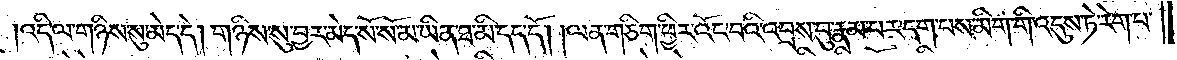འདི་ལ་གཉིས་སུ་མེད་དེ། གཉིས་སུ་བྱར་མེད་སོ་སོ་མ་ཡིན་ཐ་མི་དད་དོ། །ལན་གཅིག་ཕྱིར་འོང་བའི་འབྲས་བུ་རྣམ་པར་དག་པས་མིག་གི་འདུས་ཏེ་རེག་པ་
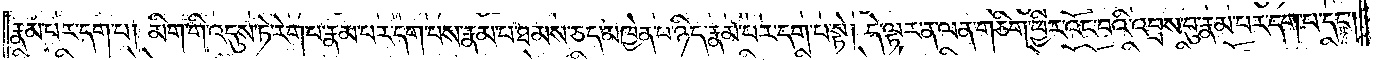རྣམ་པར་དག་པ། མིག་གི་འདུས་ཏེ་རེག་པ་རྣམ་པར་དག་པས་རྣམ་པ་ཐམས་ཅད་མཁྱེན་པ་ཉིད་རྣམ་པར་དག་པ་སྟེ། དེ་ལྟར་ན་ལན་གཅིག་ཕྱིར་འོང་པའི་འབྲས་བུ་རྣམ་པར་དག་པ་དང༌།
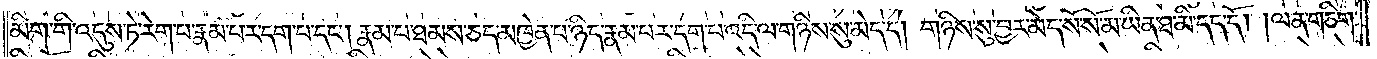མིག་གི་འདུས་ཏེ་རེག་པ་རྣམ་པར་དག་པ་དང༌། རྣམ་པ་ཐམས་ཅད་མཁྱེན་པ་ཉིད་རྣམ་པར་དག་པ་འདི་ལ་གཉིས་སུ་མེད་དེ། གཉིས་སུ་བྱར་མེད་སོ་སོ་མ་ཡིན་ཐ་མི་དད་དོ། །ལན་གཅིག་
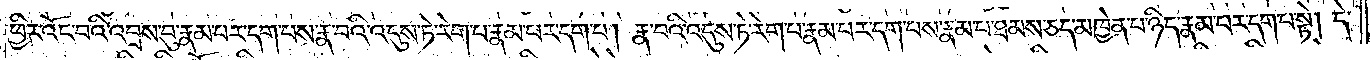ཕྱིར་འོང་བའི་འབྲས་བུ་རྣམ་པར་དག་པས་རྣ་བའི་འདུས་ཏེ་རེག་པ་རྣམ་པར་དག་པ། རྣ་བའི་འདུས་ཏེ་རེག་པ་རྣམ་པར་དག་པས་རྣམ་པ་ཐམས་ཅད་མཁྱེན་པ་ཉིད་རྣམ་པར་དག་པ་སྟེ། དེ་
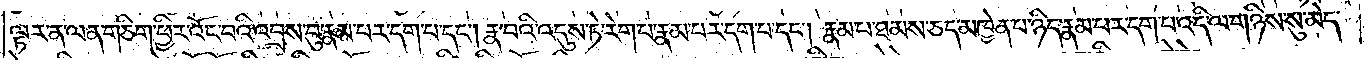ལྟར་ན་ལན་གཅིག་ཕྱིར་འོང་བའི་འབྲས་བུ་རྣམ་པར་དག་པ་དང༌། རྣ་བའི་འདུས་ཏེ་རེག་པ་རྣམ་པར་དག་པ་དང༌། རྣམ་པ་ཐམས་ཅད་མཁྱེན་པ་ཉིད་རྣམ་པར་དག་པ་འདི་ལ་གཉིས་སུ་མེད་
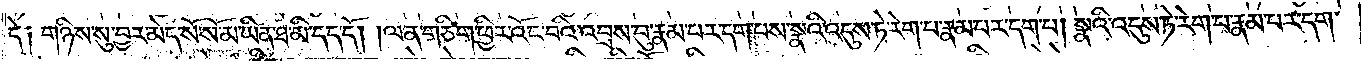དེ༑ གཉིས་སུ་བྱར་མེད་སོ་སོ་མ་ཡིན་ཐ་མི་དད་དོ། །ལན་གཅིག་ཕྱིར་འོང་བའི་འབྲས་བུ་རྣམ་པར་དག་པས་སྣའི་འདུས་ཏེ་རེག་པ་རྣམ་པར་དག་པ། སྣའི་འདུས་ཏེ་རེག་པ་རྣམ་པར་དག་
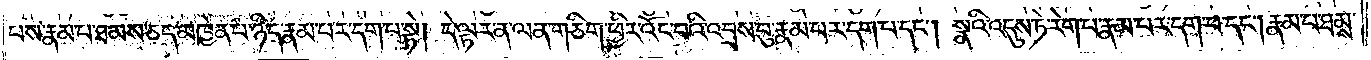པས་རྣམ་པ་ཐམས་ཅད་མཁྱེན་པ་ཉིད་རྣམ་པར་དག་པ་སྟེ། དེ་ལྟར་ན་ལན་གཅིག་ཕྱིར་འོང་བའི་འབྲས་བུ་རྣམ་པར་དག་པ་དང༌། སྣའི་འདུས་ཏེ་རེག་པ་རྣམ་པར་དག་པ་དང༌། རྣམ་པ་ཐམས་
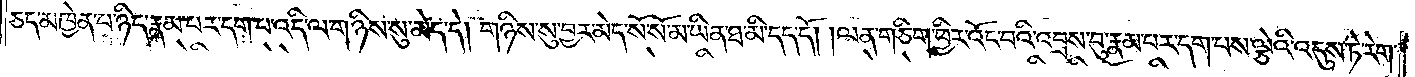ཅད་མཁྱེན་པ་ཉིད་རྣམ་པར་དག་པ་འདི་ལ་གཉིས་སུ་མེད་དེ། གཉིས་སུ་བྱར་མེད་སོ་སོ་མ་ཡིན་ཐ་མི་དད་དོ། །ལན་གཅིག་ཕྱིར་འོང་བའི་འབྲས་བུ་རྣམ་པར་དག་པས་ལྕེའི་འདུས་ཏེ་རེག་
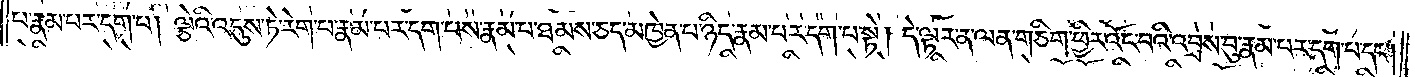པ་རྣམ་པར་དག་པ། ལྕེའི་འདུས་ཏེ་རེག་པ་རྣམ་པར་དག་པས་རྣམ་པ་ཐམས་ཅད་མཁྱེན་པ་ཉིད་རྣམ་པར་དག་པ་སྟེ། དེ་ལྟར་ན་ལན་གཅིག་ཕྱིར་འོང་བའི་འབྲས་བུ་རྣམ་པར་དག་པ་དང༌།
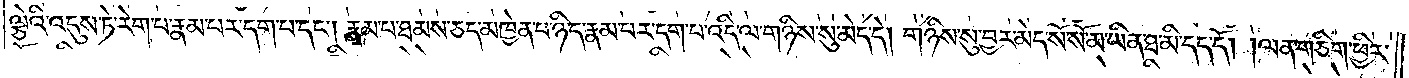ལྕེའི་འདུས་ཏེ་རེག་པ་རྣམ་པར་དག་པ་དང༌། རྣམ་པ་ཐམས་ཅད་མཁྱེན་པ་ཉིད་རྣམ་པར་དག་པ་འདི་ལ་གཉིས་སུ་མེད་དེ། གཉིས་སུ་བྱར་མེད་སོ་སོ་མ་ཡིན་ཐ་མི་དད་དོ། །ལན་གཅིག་ཕྱིར་
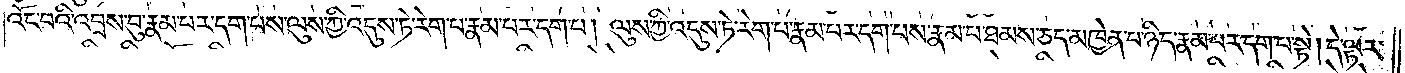འོང་བའི་འབྲས་བུ་རྣམ་པར་དག་པས་ལུས་ཀྱི་འདུས་ཏེ་རེག་པ་རྣམ་པར་དག་པ། ལུས་ཀྱི་འདུས་ཏེ་རེག་པ་རྣམ་པར་དག་པས་རྣམ་པ་ཐམས་ཅད་མཁྱེན་པ་ཉིད་རྣམ་པར་དག་པ་སྟེ། དེ་ལྟར་
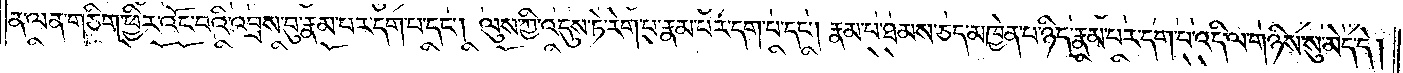ན་ལན་གཅིག་ཕྱིར་འོང་བའི་འབྲས་བུ་རྣམ་པར་དག་པ་དང༌། ལུས་ཀྱི་འདུས་ཏེ་རེག་པ་རྣམ་པར་དག་པ་དང༌། རྣམ་པ་ཐམས་ཅད་མཁྱེན་པ་ཉིད་རྣམ་པར་དག་པ་འདི་ལ་གཉིས་སུ་མེད་དེ།
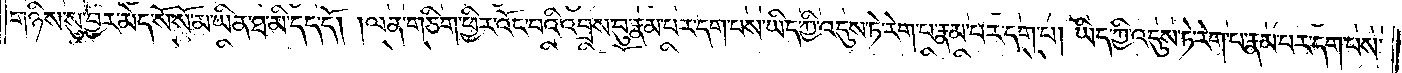གཉིས་སུ་བྱར་མེད་སོ་སོ་མ་ཡིན་ཐ་མི་དད་དོ། །ལན་གཅིག་ཕྱིར་འོང་བའི་འབྲས་བུ་རྣམ་པར་དག་པས་ཡིད་ཀྱི་འདུས་ཏེ་རེག་པ་རྣམ་པར་དག་པ། ཡིད་ཀྱི་འདུས་ཏེ་རེག་པ་རྣམ་པར་དག་པས་
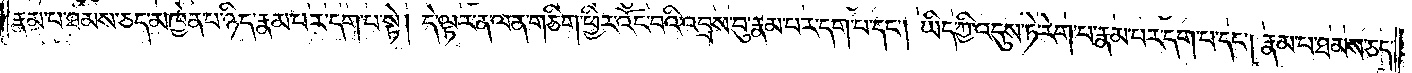རྣམ་པ་ཐམས་ཅད་མཁྱེན་པ་ཉིད་རྣམ་པར་དག་པ་སྟེ། དེ་ལྟར་ན་ལན་གཅིག་ཕྱིར་འོང་བའི་འབྲས་བུ་རྣམ་པར་དག་པ་དང༌། ཡིད་ཀྱི་འདུས་ཏེ་རེག་པ་རྣམ་པར་དག་པ་དང༌། རྣམ་པ་ཐམས་ཅད་
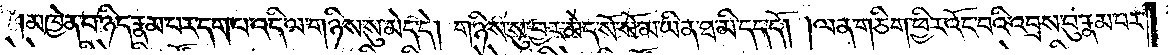མཁྱེན་པ་ཉིད་རྣམ་པར་དག་པ་འདི་ལ་གཉིས་སུ་མེད་དེ། གཉིས་སུ་བྱར་མེད་སོ་སོ་མ་ཡིན་ཐ་མི་དད་དོ། །ལན་གཅིག་ཕྱིར་འོང་བའི་འབྲས་བུ་རྣམ་པར་
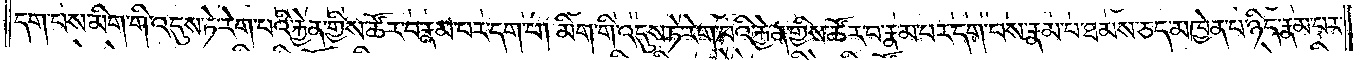དག་པས་མིག་གི་འདུས་ཏེ་རེག་པའི་རྐྱེན་གྱིས་ཚོར་བ་རྣམ་པར་དག་པ། མིག་གི་འདུས་ཏེ་རེག་པའི་རྐྱེན་གྱིས་ཚོར་བ་རྣམ་པར་དག་པས་རྣམ་པ་ཐམས་ཅད་མཁྱེན་པ་ཉིད་རྣམ་པར་
